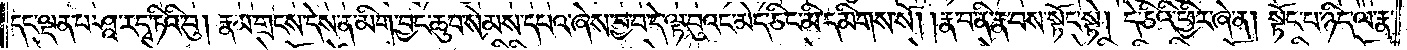དང་ལྡན་པ་ཤཱ་ར་དྭ་ཏིའི་བུ། རྣམ་གྲངས་དེས་ན་མིག་བྱང་ཆུབ་སེམས་དཔའ་ཞེས་བྱ་བ་དེ་ལྟ་བུའང་མེད་ཅིང་མི་དམིགས་སོ། ། རྣ་བ་ནི་རྣ་བས་སྟོང་སྟེ། དེ་ཅིའི་ཕྱིར་ཞེ་ན། སྟོང་པ་ཉིད་ལ་རྣ་
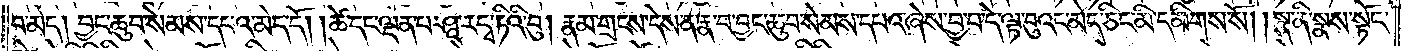བ་མེད། བྱང་ཆུབ་སེམས་དཔའ་མེད་དོ། །ཚེ་དང་ལྡན་པ་ཤཱ་ར་དྭ་ཏིའི་བུ། རྣམ་གྲངས་དེས་ན་རྣ་བ་བྱང་ཆུབ་སེམས་དཔའ་ཞེས་བྱ་བ་དེ་ལྟ་བུའང་མེད་ཅིང་མི་དམིགས་སོ། །སྣ་ནི་སྣས་སྟོང་
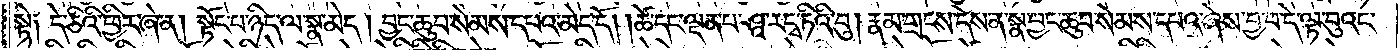སྟེ། དེ་ཅིའི་ཕྱིར་ཞེ་ན། སྟོང་པ་ཉིད་ལ་སྣ་མེད། བྱང་ཆུབ་སེམས་དཔའ་མེད་དོ། །ཚེ་དང་ལྡན་པ་ཤཱ་ར་དྭ་ཏིའི་བུ། རྣམ་གྲངས་དེས་ན་སྣ་བྱང་ཆུབ་སེམས་དཔའ་ཞེས་བྱ་བ་དེ་ལྟ་བུའང་
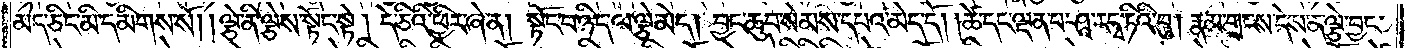མེད་ཅིང་མི་དམིགས་སོ། །ལྕེ་ནི་ལྕེས་སྟོང་སྟེ། དེ་ཅིའི་ཕྱིར་ཞེ་ན། སྟོང་པ་ཉིད་ལ་ལྕེ་མེད། བྱང་ཆུབ་སེམས་དཔའ་མེད་དོ། །ཚེ་དང་ལྡན་པ་ཤཱ་ར་དྭ་ཏིའི་བུ། རྣམ་གྲངས་དེས་ན་ལྕེ་བྱང་
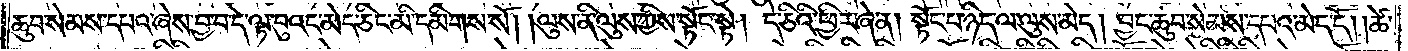ཆུབ་སེམས་དཔའ་ཞེས་བྱ་བ་དེ་ལྟ་བུའང་མེད་ཅིང་མི་དམིགས་སོ། །ལུས་ནི་ལུས་ཀྱིས་སྟོང་སྟེ། དེ་ཅིའི་ཕྱིར་ཞེ་ན། སྟོང་པ་ཉིད་ལ་ལུས་མེད། བྱང་ཆུབ་སེམས་དཔའ་མེད་དོ། །ཚེ་
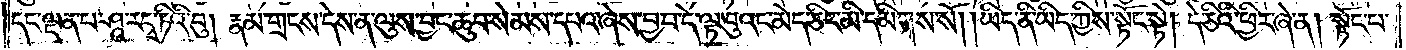དང་ལྡན་པ་ཤཱ་ར་དྭ་ཏིའི། བུ་རྣམ་གྲངས་དེས་ན་ལུས་བྱང་ཆུབ་སེམས་དཔའ་ཞེས་བྱ་བ་དེ་ལྟ་བུའང་མེད་ཅིང་མི་དམིགས་སོ། །ཡིད་ནི་ཡིད་ཀྱིས་སྟོང་སྟེ། དེ་ཅིའི་ཕྱིར་ཞེ་ན། སྟོང་པ་
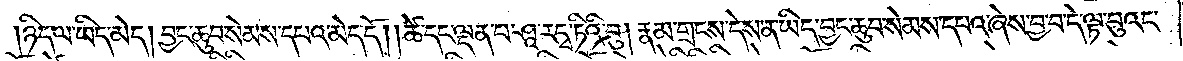ཉིད་ལ་ཡིད་མེད། བྱང་ཆུབ་སེམས་དཔའ་མེད་དོ། །ཚེ་དང་ལྡན་པ་ཤཱ་ར་དྭ་ཏིའི་བུ། རྣམ་གྲངས་དེས་ན་ཡིད་བྱང་ཆུབ་སེམས་དཔའ་ཞེས་བྱ་བ་དེ་ལྟ་བུའང་
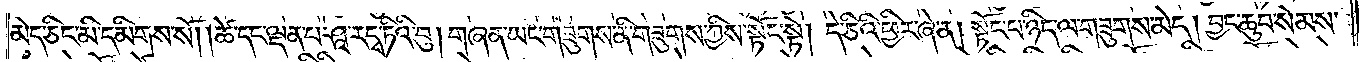མེད་ཅིང་མི་དམིགས་སོ། །ཚེ་དང་ལྡན་པ་ཤཱ་ར་དྭ་ཏིའི་བུ། གཞན་ཡང་གཟུགས་ནི་གཟུགས་ཀྱིས་སྟོང་སྟེ། དེ་ཅིའི་ཕྱིར་ཞེ་ན། སྟོང་པ་ཉིད་ལ་གཟུགས་མེད། བྱང་ཆུབ་སེམས་
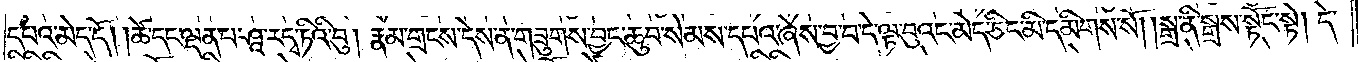དཔའ་མེད་དོ། །ཚེ་དང་ལྡན་པ་ཤཱ་ར་དྭ་ཏིའི་བུ། རྣམ་གྲངས་དེས་ན་གཟུགས་བྱང་ཆུབ་སེམས་དཔའ་ཞེས་བྱ་བ་དེ་ལྟ་བུའང་མེད་ཅིང་མི་དམིགས་སོ། །སྒྲ་ནི་སྒྲས་སྟོང་སྟེ། དེ་
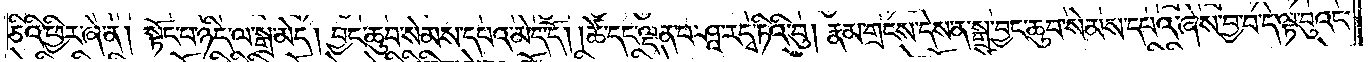ཅིའི་ཕྱིར་ཞེ་ན། སྟོང་པ་ཉིད་ལ་སྒྲ་མེད། བྱང་ཆུབ་སེམས་དཔའ་མེད་དོ། །ཚེ་དང་ལྡན་པ་ཤཱ་ར་དྭ་ཏིའི་བུ། རྣམ་གྲངས་དེས་ན་སྒྲ་བྱང་ཆུབ་སེམས་དཔའ་ཞེས་བྱ་བ་དེ་ལྟ་བུའང་
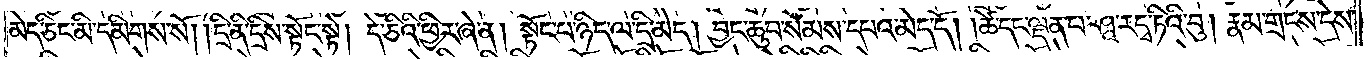མེད་ཅིང་མི་དམིགས་སོ། །དྲི་ནི་དྲིས་སྟོང་སྟེ། དེ་ཅིའི་ཕྱིར་ཞེ་ན། སྟོང་པ་ཉིད་ལ་དྲི་མེད། བྱང་ཆུབ་སེམས་དཔའ་མེད་དོ། །ཚེ་དང་ལྡན་པ་ཤཱ་ར་དྭ་ཏིའི་བུ། རྣམ་གྲངས་དེས་
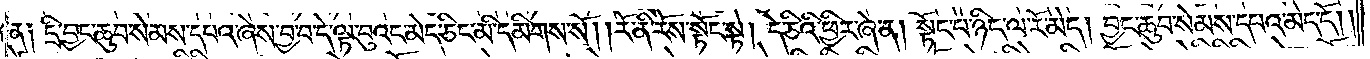ན། དྲི་བྱང་ཆུབ་སེམས་དཔའ་ཞེས་བྱ་བ་དེ་ལྟ་བུའང་མེད་ཅིང་མི་དམིགས་སོ། །རོ་ནི་རོས་སྟོང་སྟེ། དེ་ཅིའི་ཕྱིར་ཞེ་ན། སྟོང་པ་ཉིད་ལ་རོ་མེད། བྱང་ཆུབ་སེམས་དཔའ་མེད་དོ། །
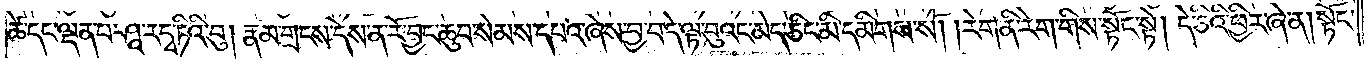ཚེ་དང་ལྡན་པ་ཤཱ་ར་དྭ་ཏིའི་བུ། རྣམ་གྲངས་དེས་ན་རོ་བྱང་ཆུབ་སེམས་དཔའ་ཞེས་བྱ་བ་དེ་ལྟ་བུའང་མེད་ཅིང་མི་དམིགས་སོ། །རེག་ནི་རེག་གིས་སྟོང་སྟེ། དེ་ཅིའི་ཕྱིར་ཞེ་ན། སྟོང་
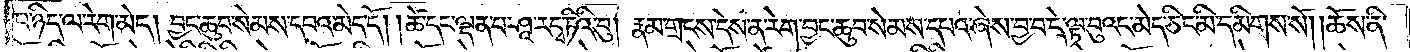པ་ཉིད་ལ་རེག་མེད། བྱང་ཆུབ་སེམས་དཔའ་མེད་དོ། །ཚེ་དང་ལྡན་པ་ཤཱ་ར་དྭ་ཏིའི་བུ། རྣམ་གྲངས་དེས་ན་རེག་བྱང་ཆུབ་སེམས་དཔའ་ཞེས་བྱ་བ་དེ་ལྟ་བུའང་མེད་ཅིང་མི་དམིགས་སོ། །ཆོས་ནི་
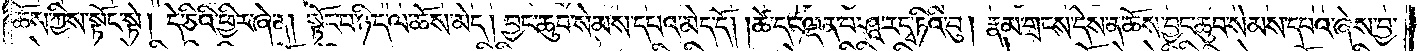ཆོས་ཀྱིས་སྟོང་སྟེ། དེ་ཅིའི་ཕྱིར་ཞེ་ན། སྟོང་པ་ཉིད་ལ་ཆོས་མེད། བྱང་ཆུབ་སེམས་དཔའ་མེད་དོ། །ཚེ་དང་ལྡན་པ་ཤཱ་ར་དྭ་ཏིའི་བུ་རྣམ་གྲངས་དེས་ན་ཆོས་བྱང་ཆུབ་སེམས་དཔའ་ཞེས་བྱ་
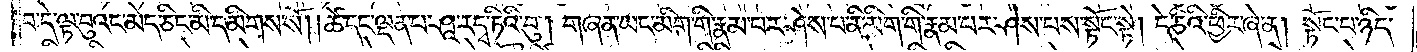བ་དེ་ལྟ་བུའང་མེད་ཅིང་མི་དམིགས་སོ། །ཚེ་དང་ལྡན་པ་ཤཱ་ར་དྭ་ཏིའི་བུ། གཞན་ཡང་མིག་གི་རྣམ་པར་ཤེས་པ་ནི་མིག་གི་རྣམ་པར་ཤེས་པས་སྟོང་སྟེ། དེ་ཅིའི་ཕྱིར་ཞེ་ན། སྟོང་པ་ཉིད་
